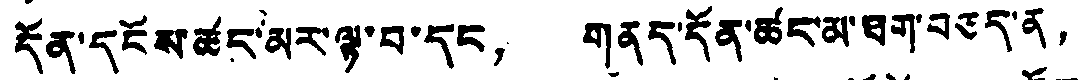དོན་དངོས་ཚང་མར་ལྟ་བ་དང， གནད་དོན་ཚང་མ་ཐག་བཅད་ན，
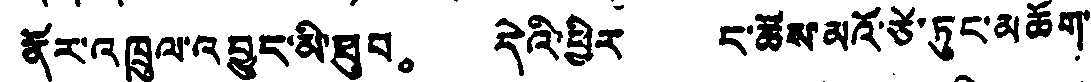ནོར་འཁྲུལ་འབྱུང་མི་ཐུབ。 དེའི་ཕྱིར ང་ཚོས་མའོ་ཙེ་ཏུང་མཆོག་
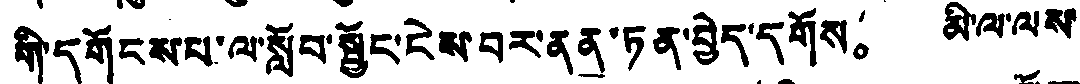གི་དགོངས་པ་ལ་སློབ་སྦྱོང་ངེས་བར་ནན་ཏན་བྱེད་དགོས。 མི་ལ་ལས་
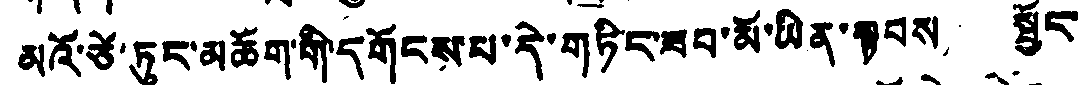མའོ་ཙེ་ཏུང་མཆོག་གི་དགོངས་པ་དེ་གཏིང་ཟབ་མོ་ཡིན་སྟབས， སྦྱོང་
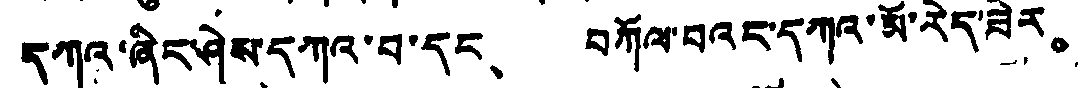དཀའ་ཞིང་ཤེས་དཀའ་བ་དང、 བཀོལ་བའང་དཀའ་མོ་རེད་ཟེར。
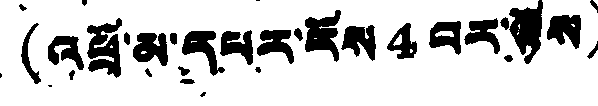(འཕྲོ་མ་དཔར་ངོས 4 བར་སྟོས)
